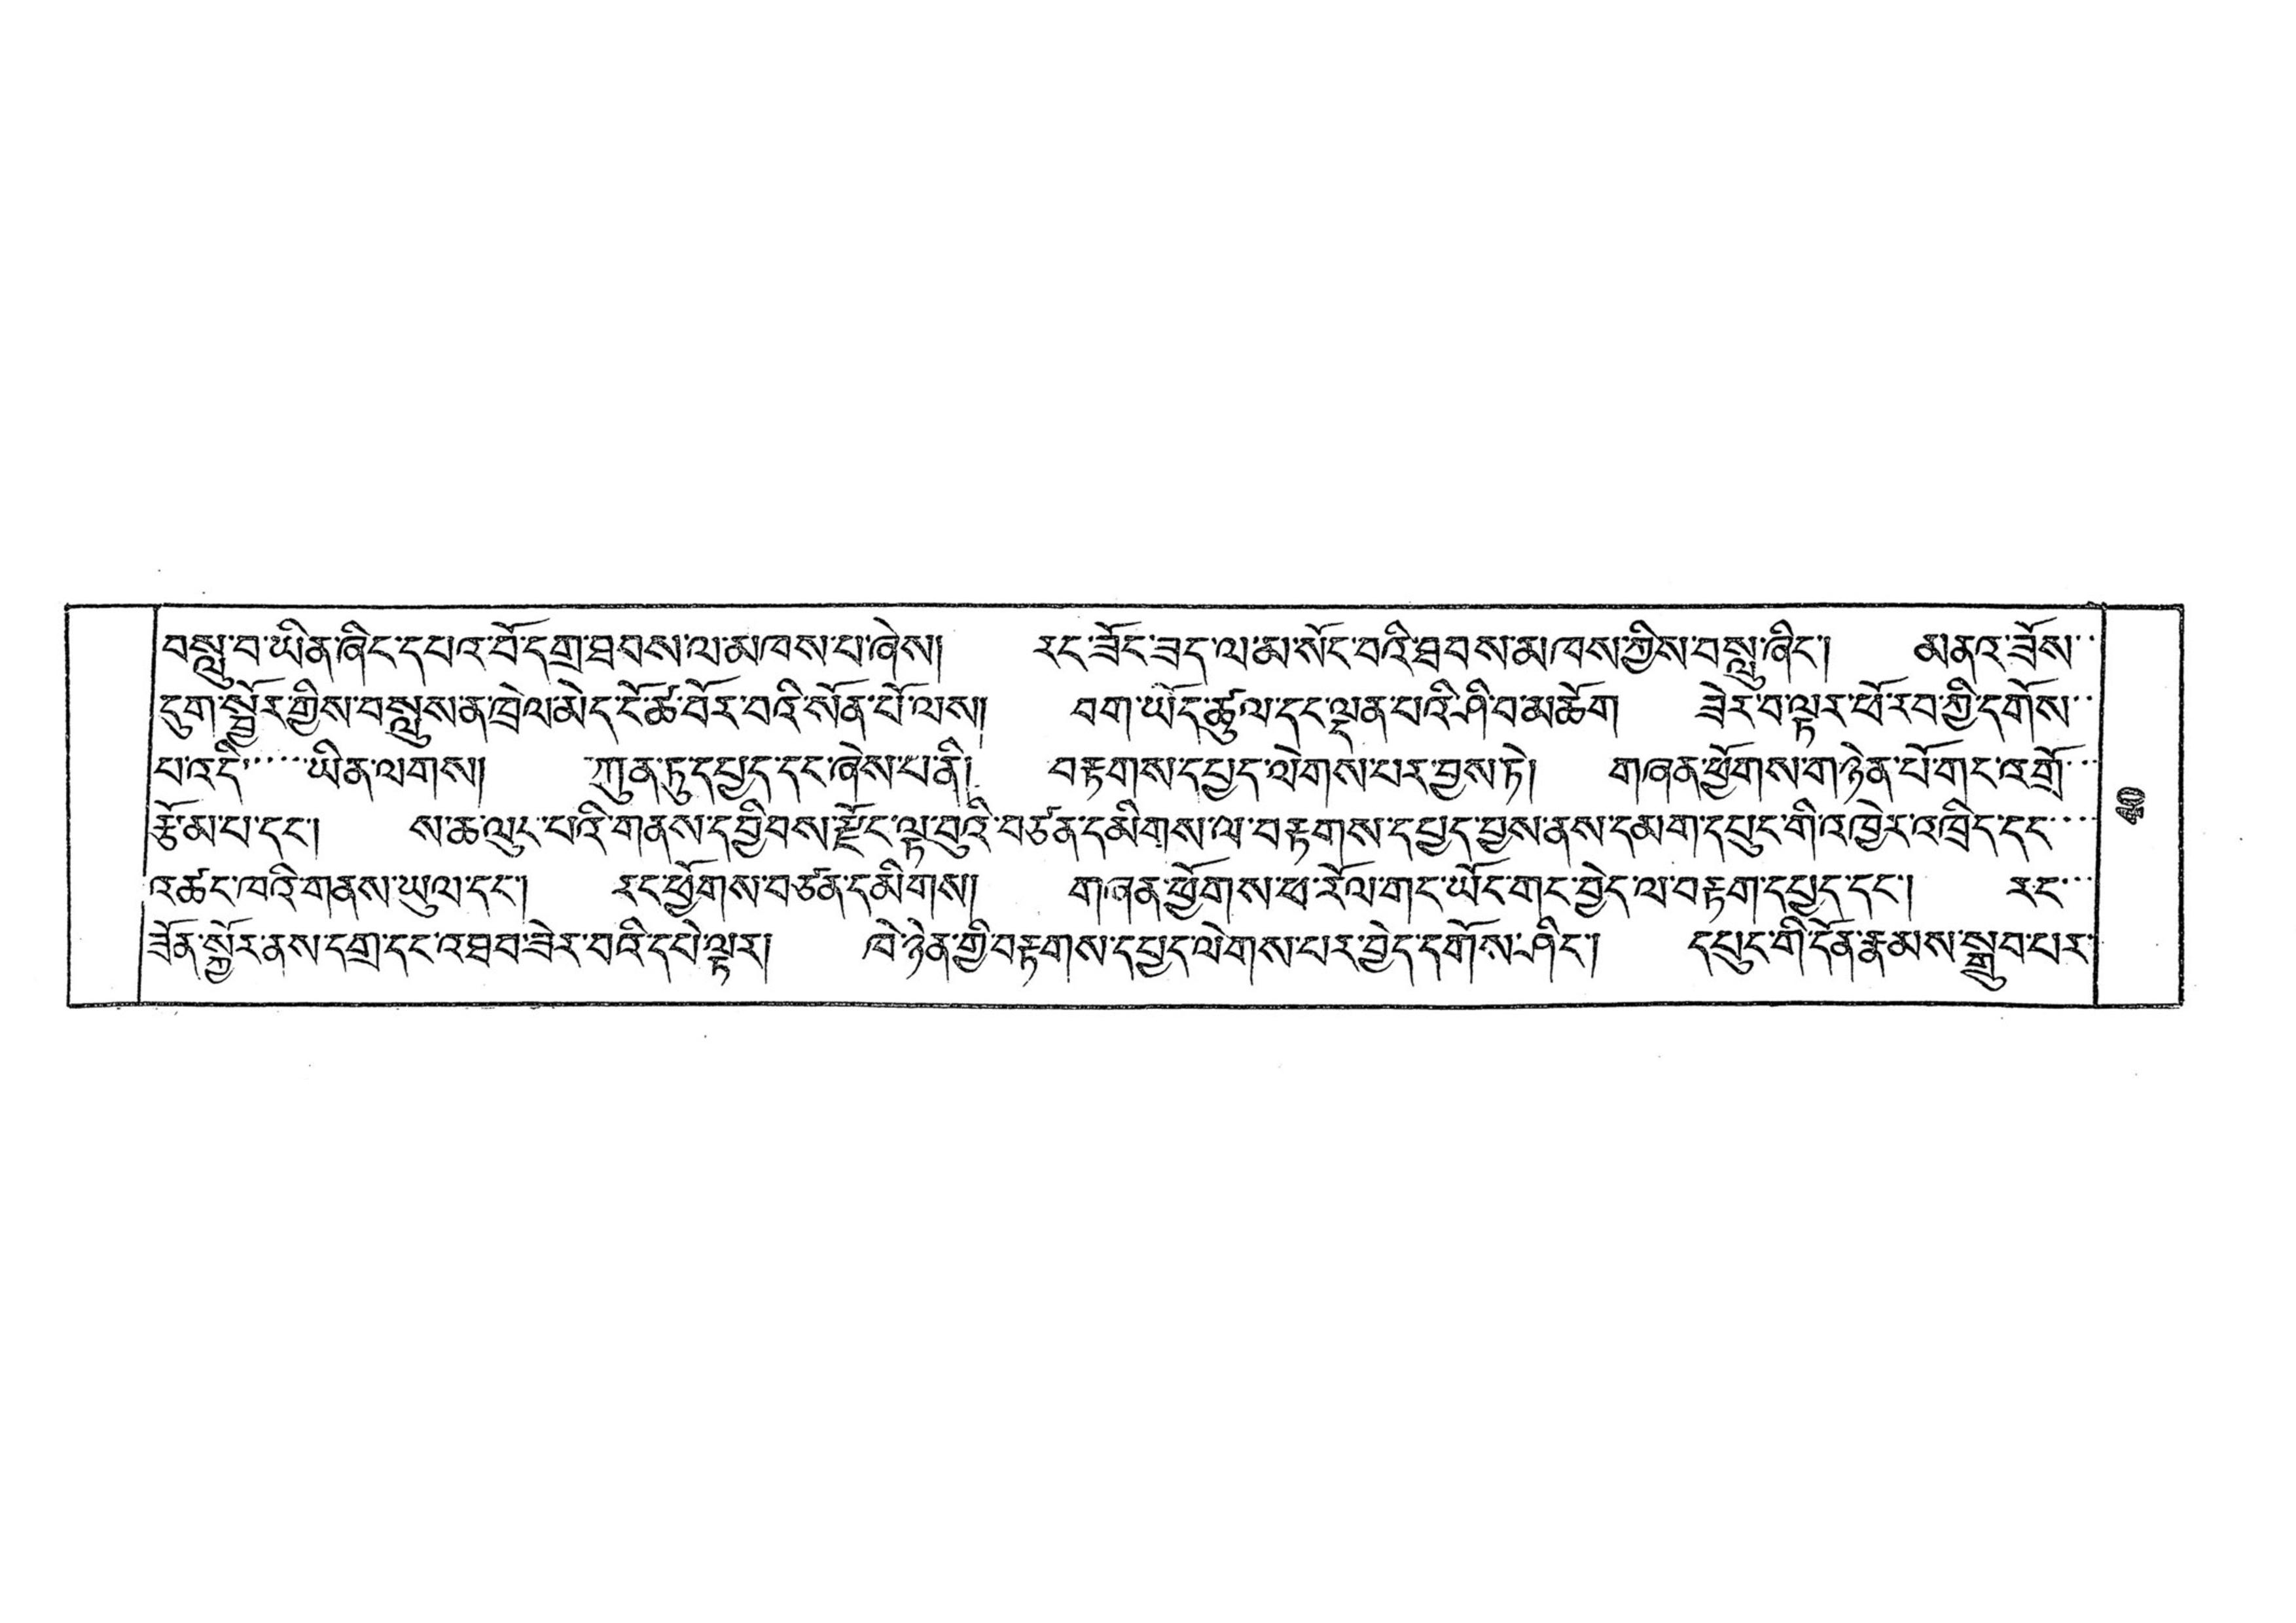བསླུ་བ་ཡིན་ཞིང་དཔའ་བོ་དགྲ་ཐབས་ལ་མཁས་པ་ཞེས། རང་ཟོང་ཟད་ལ་མ་སོང་པའི་ཐབས་མཁས་ཀྱིས་བསླུ་ཞིང་། མནའ་ཟོས་་
དུག་སྦྱོར་གྱིས་བསླུས་ན་ཁྲེལ་མེད་ངོ་ཚ་བོར་བའི་སོན་པོ་ལས། བག་ཡོད་ཚུལ་དང་ལྡན་པའི་ཤི་བ་མཆོག ཟེར་བ་ལྟར་ཕོ་རབ་ཀྱི་དགོས་་
པ་འདི་་་་་་ཡིན་ལགས། ཀུན་ཏུ་དཔྱད་དང་ཞེས་པ་ནི། བརྟགས་དཔྱད་ལེགས་པར་བྱས་ཏེ། གཞན་ཕྱོགས་གཉེན་པོ་གང་འགྲོ་་་
རྩོམ་པ་དང་། ས་ཆ་ལུང་པའི་གནས་དབྱིབས་རྫོང་ལྟ་བུའི་བཙན་དམིགས་ལ་བརྟགས་དཔྱད་བྱས་ནས་དམག་དཔུང་གི་འཁྱེར་འཁྲིད་དང་་་་
འཚང་ཁའི་གནས་ཡུལ་དང་། རང་ཕྱོགས་བཙན་དམིགས། གཞན་ཕྱོགས་ཕ་རོལ་གང་ཡོང་གང་བྱེད་ལ་བརྟག་དཔྱད་དང་། རང་་་
ཟོན་སྐྱོར་ནས་དགྲ་དང་འཐབ་ཟེར་བའི་དཔེ་ལྟར། ཁེ་ཉེན་གྱི་བརྟགས་དཔྱད་ལེགས་པར་བྱེད་དགོས་ཤིང་། དཔུང་གི་དོན་རྣམས་སྒྲུབ་པར་
